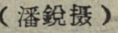（潘銳摄）
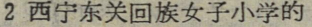2 西宁东关回族女子小学的
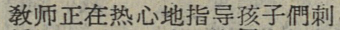敎师正在热心地指导孩子們刺
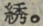綉。
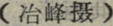（冶峰摄）
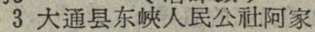3 大通县东峽人民公社阿家
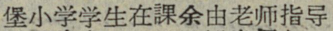堡小学学生在課余由老师指导
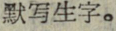默写生字。
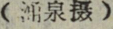（涌泉摄）
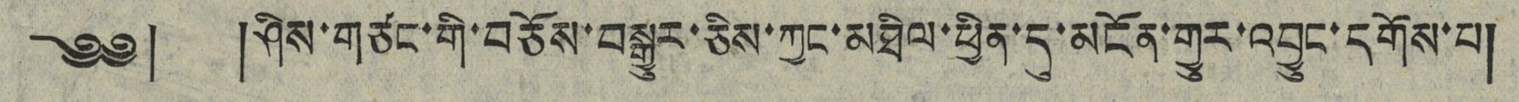༄༅། །ཤིས་གཙང་གི་བཅོས་བསྒྱུར་ཅིས་ཀྱང་མཐིལ་ཕྱིན་དུ་མངོན་གྱུར་འབྱུང་དགོས་པ།
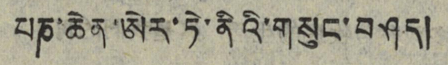པཎ་ཆེན་ཨེར་ཏེ་ནིའི་གསུང་བཤད།
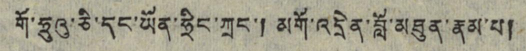གོ་ཧྲུའུ་ཅི་དང་ཡོན་ཧྲིང་ཀྲང་། མགོ་འདྲེན་བློ་མཐུན་རྣམ་པ།
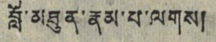བློ་མཐུན་རྣམ་པ་ལགས།
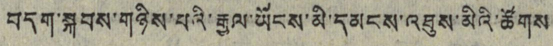བདག་སྐབས་གཉིས་པའི་རྒྱལ་ཡོངས་མི་དམངས་འཐུས་མིའི་ཚོགས
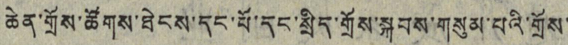ཆེན་གྲོས་ཚོགས་ཐེངས་དང་པོ་དང་སྲིད་གྲོས་སྐབས་གསུམ་པའི་གྲོས་
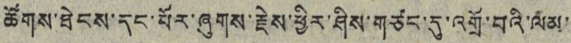ཚོགས་ཐེངས་དང་པོར་ཞུགས་རྗེས་ཕྱིར་ཤིས་གཙང་དུ་འགྲོ་བའི་ལམ་
